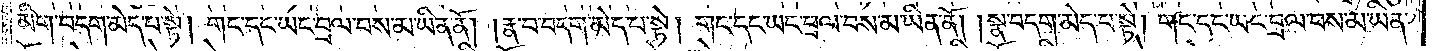མིག་བདག་མེད་པ་སྟེ། གང་དང་ཡང་བྲལ་བས་མ་ཡིན་ནོ། །རྣ་བ་བདག་མེད་པ་སྟེ། གང་དང་ཡང་བྲེལ་བས་མ་ཡིན་ནོ། །སྣ་བདག་མེད་པ་སྟེ། གང་དང་ཡང་བྲལ་བས་མ་ཡིན་
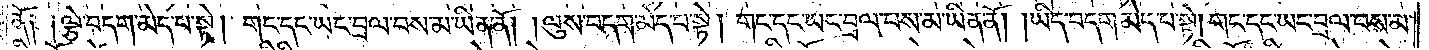ནོ། །ལྕེ་བདག་མེད་པ་སྟེ། གང་དང་ཡང་བྲལ་བས་མ་ཡིན་ནོ། །ལུས་བདག་མེད་པ་སྟེ། གང་དང་ཡང་བྲལ་བས་མ་ཡིན་ནོ། །ཡིད་བདག་མེད་པ་སྟེ། གང་དང་ཡང་བྲལ་བས་མ་
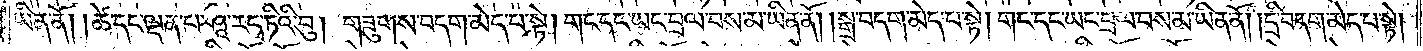ཡིན་ནོ། །ཚེ་དང་ལྡན་པ་ཤཱ་ར་དྭ་ཏིའི་བུ། གཟུགས་བདག་མེད་པ་སྟེ། གང་དང་ཡང་བྲལ་བས་མ་ཡིན་ནོ། །སྒྲ་བདག་མེད་པ་སྟེ། གང་དང་ཡང་བྲལ་བས་མ་ཡིན་ནོ། །དྲི་བདག་མེད་པ་སྟེ།
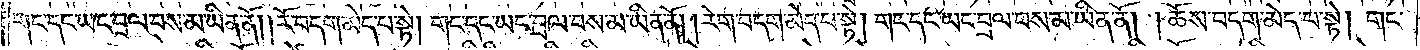གང་དང་ཡང་བྲལ་བས་མ་ཡིན་ནོ། །རོ་བདག་མེད་པ་སྟེ། གང་དང་ཡང་བྲལ་བས་མ་ཡིན་ནོ། །རེག་བདག་མེད་པ་སྟེ། གང་དང་ཡང་བྲལ་བས་མ་ཡིན་ནོ། །ཆོས་བདག་མེད་པ་སྟེ། གང་
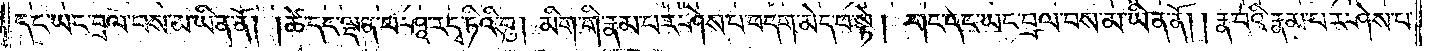དང་ཡང་བྲལ་བས་མ་ཡིན་ནོ། །ཚེ་དང་ལྡན་པ་ཤཱ་ར་དྭ་ཏིའི་བུ། མིག་གི་རྣམ་པར་ཤེས་པ་བདག་མེད་པ་སྟེ། གང་དང་ཡང་བྲལ་བས་མ་ཡིན་ནོ། །རྣ་བའི་རྣམ་པར་ཤེས་པ་
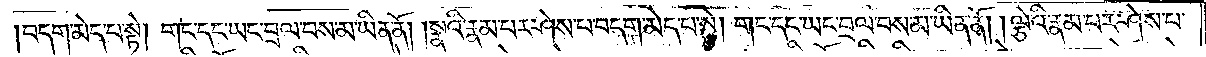བདག་མེད་པ་སྟེ། གང་དང་ཡང་བྲལ་བས་མ་ཡིན་ནོ། །སྣའི་རྣམ་པར་ཤེས་པ་བདག་མེད་པ་སྟེ། གང་དང་ཡང་བྲལ་བས་མ་ཡིན་ནོ། །ལྕེའི་རྣམ་པར་ཤེས་པ་
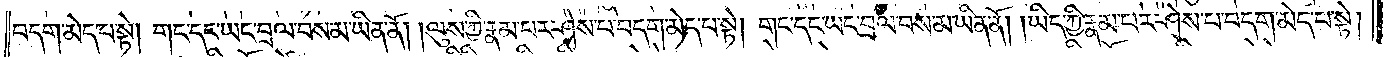བདག་མེད་པ་སྟེ། གང་དང་ཡང་བྲལ་བས་མ་ཡིན་ནོ། །ལུས་ཀྱི་རྣམ་པར་ཤེས་པ་བདག་མེད་པ་སྟེ། གང་དང་ཡང་བྲལ་བས་མ་ཡིན་ནོ། །ཡིད་ཀྱི་རྣམ་པར་ཤེས་པ་བདག་མེད་པ་སྟེ།
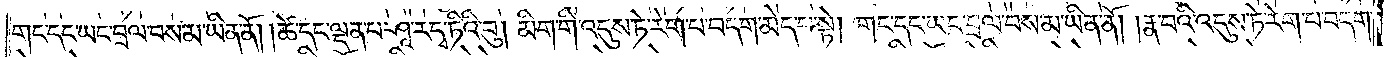གང་དང་ཡང་བྲལ་བས་མ་ཡིན་ནོ། །ཚེ་དང་ལྡན་པ་ཤཱ་ར་དྭ་ཏིའི་བུ། མིག་གི་འདུས་ཏེ་རེག་པ་བདག་མེད་པ་སྟེ། གང་དང་ཡང་བྲལ་བས་མ་ཡིན་ནོ། །རྣ་བའི་འདུས་ཏེ་རེག་པ་བདག་
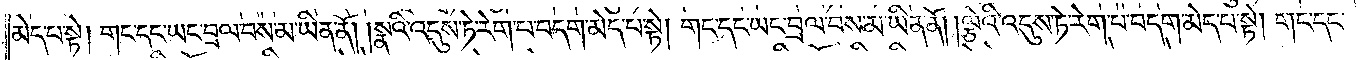མེད་པ་སྟེ། གང་དང་ཡང་བྲལ་བས་མ་ཡིན་ནོ། །སྣའི་འདུས་ཏེ་རེག་པ་བདག་མེད་པ་སྟེ། གང་དང་ཡང་བྲལ་བས་མ་ཡིན་ནོ། །ལྕེའི་འདུས་ཏེ་རེག་པ་བདག་མེད་པ་སྟེ། གང་དང་
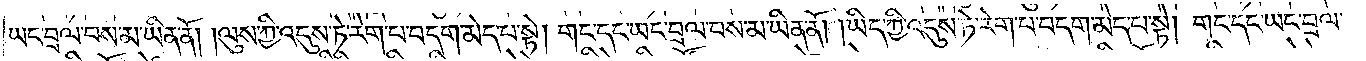ཡང་བྲལ་བས་མ་ཡིན་ནོ། །ལུས་ཀྱི་འདུས་ཏེ་རེག་པ་བདག་མེད་པ་སྟེ། གང་དང་ཡང་བྲལ་བས་མ་ཡིན་ནོ། །ཡིད་ཀྱི་འདུས་ཏེ་རེག་པ་བདག་མེད་པ་སྟེ། གང་དང་ཡང་བྲལ་
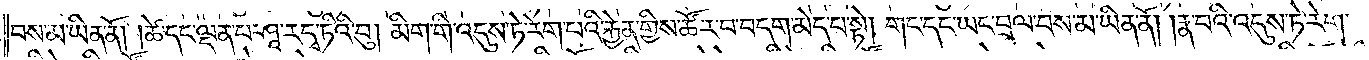བས་མ་ཡིན་ནོ། །ཚེ་དང་ལྡན་པ་ཤཱ་ར་དྭ་ཏིའི་བུ། མིག་གི་འདུས་ཏེ་རེག་པའི་རྐྱེན་གྱིས་ཚོར་བ་བདག་མེད་པ་སྟེ། གང་དང་ཡང་བྲལ་བས་མ་ཡིན་ནོ། །རྣ་བའི་འདུས་ཏེ་རེག་
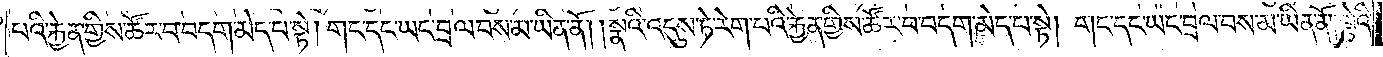པའི་རྐྱེན་གྱིས་ཚོར་བ་བདག་མེད་པ་སྟེ། གང་དང་ཡང་བྲལ་བས་མ་ཡིན་ནོ། །སྣའི་འདུས་ཏེ་རེག་པའི་རྐྱེན་གྱིས་ཚོར་བ་བདག་མེད་པ་སྟེ། གང་དང་ཡང་བྲལ་བས་མ་ཡིན་ནོ། །ལྕེའི་
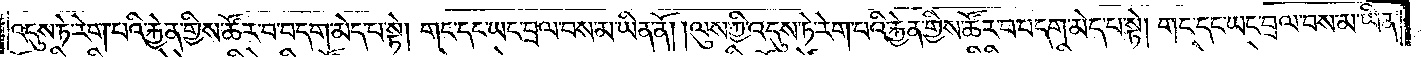འདུས་ཏེ་རེག་པའི་རྐྱེན་གྱིས་ཚོར་བ་བདག་མེད་པ་སྟེ། གང་དང་ཡང་བྲལ་བས་མ་ཡིན་ནོ། །ལུས་ཀྱི་འདུས་ཏེ་རེག་པའི་རྐྱེན་གྱིས་ཚོར་བ་བདག་མེད་པ་སྟེ། གང་དང་ཡང་བྲལ་བས་མ་ཡིན་
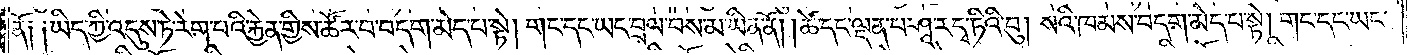ནོ༑ ༑ཡིད་ཀྱི་འདུས་ཏེ་རེག་པའི་རྐྱེན་གྱིས་ཚོར་བ་བདག་མེད་པ་སྟེ། གང་དང་ཡང་བྲལ་བས་མ་ཡིན་ནོ། །ཚེ་དང་ལྡན་པ་ཤཱ་ར་དྭ་ཏིའི་བུ། སའི་ཁམས་བདག་མེད་པ་སྟེ། གང་དང་ཡང་
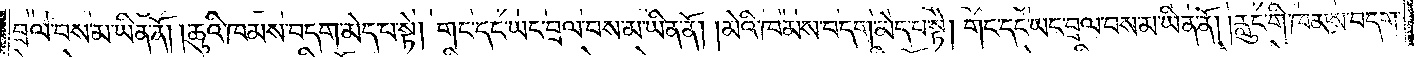བྲལ་བས་མ་ཡིན་ནོ། །ཆུའི་ཁམས་བདག་མེད་པ་སྟེ། གང་དང་ཡང་བྲལ་བས་མ་ཡིན་ནོ། །མེའི་ཁམས་བདག་མེད་པ་སྟེ། གང་དང་ཡང་བྲལ་བས་མ་ཡིན་ནོ། །རླུང་གི་ཁམས་བདག་
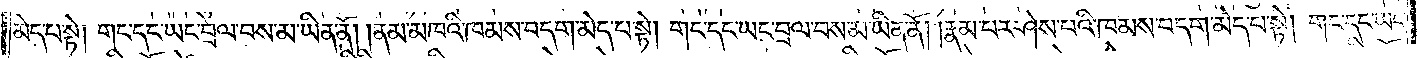མེད་པ་སྟེ། གང་དང་ཡང་བྲལ་བས་མ་ཡིན་ནོ། །ནམ་མཁའི་ཁམས་བདག་མེད་པ་སྟེ། གང་དང་ཡང་བྲལ་བས་མ་ཡིན་ནོ། །རྣམ་པར་ཤེས་པའི་ཁམས་བདག་མེད་པ་སྟེ། གང་དང་ཡང་
